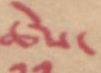ཚེས་
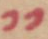༡༡
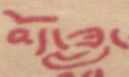བོད་ཟླ་
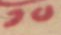༡༠
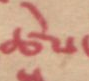ཚེས་
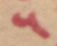༥
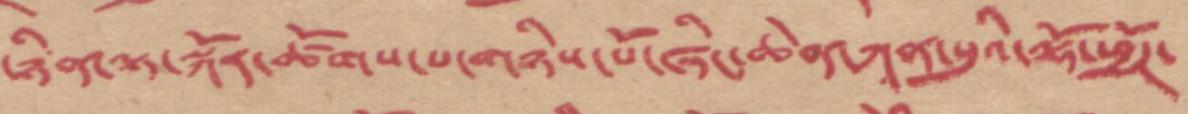ཉིན་ལྟ་སྐོར་ཚོགས་པ་གཉིས་པོ་ཞིང་ཆེན་ཀཱན་སུའི་ལྷོ་ཕྱོཌ་
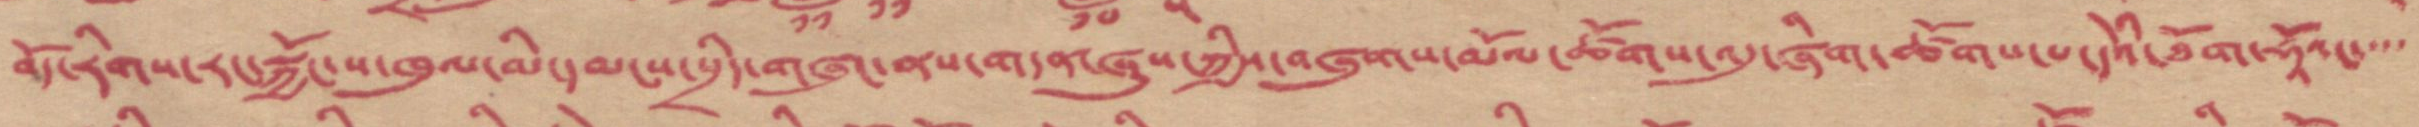བོད་རིགས་རང་སྐྱོང་ས་ཁུལ་མི་དམངས་སྲིད་གཞུང་ནས་གདན་ཞུས་ཀྱིས་བཞུགས་མོལ་ཚོགས་འདུ་ཞིག་ཚོགས་པ་དེའི་ཐོག་ཧཱོའང་་་
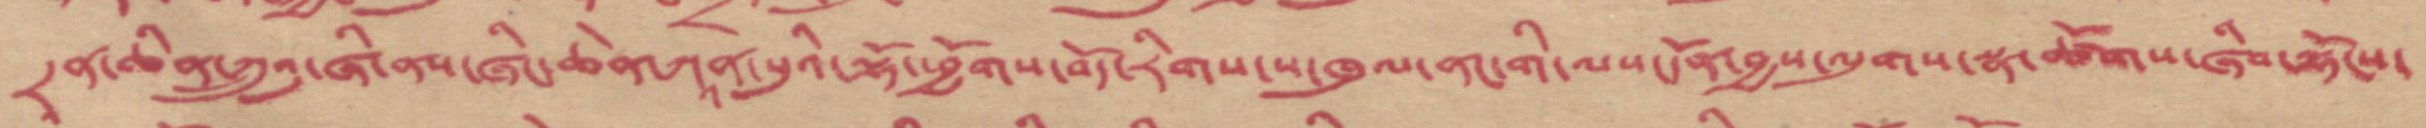དྲན་ཆིན་ཀྲུའུ་ཞི་ནས་ཞིང་ཆེན་ཀཱན་སུའི་ལྷོ་ཕྱོགས་བོད་རིགས་ས་ཁུལ་ནང་གི་ལས་དོན་བྱས་ལུགས་སྣ་ཚོགས་ཞིབ་ལྷོངས་
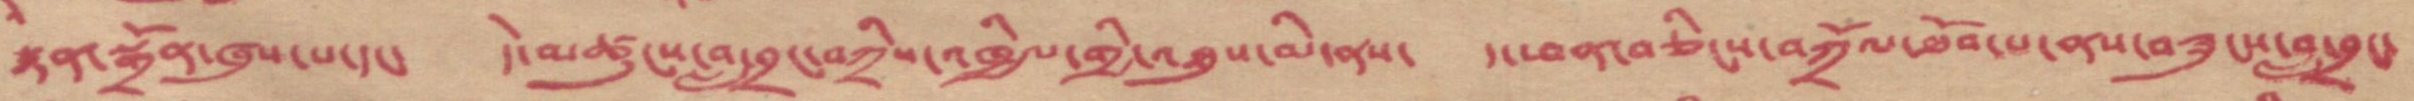སྙན་སྒྲོན་ཁུས་པ་དང་ དེ་མཚུངས་བླ་བྲང་བཀྲིས་འཁྱིལ་གྱི་འཐུས་མི་ནས་ དང་ཕན་བཅིངས་བཀྲོལ་ཐོབ་པ་ནས་བཟུངས་བླ་བྲང་
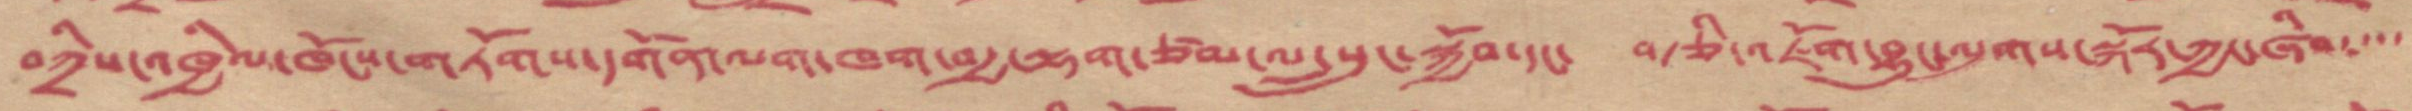བཀྲིས་འཁྱིལ་ཁོངས་གཏོགས་དགོན་ལག་ཁག་བརྒྱ་ལྷག་ཙམ་ལ་སྲུང་སྐྱོབ་དང་ བརྩི་འཇོག་བྱུང་ལུགས་སྐོར་ཀྱང་ཞིབ་་་
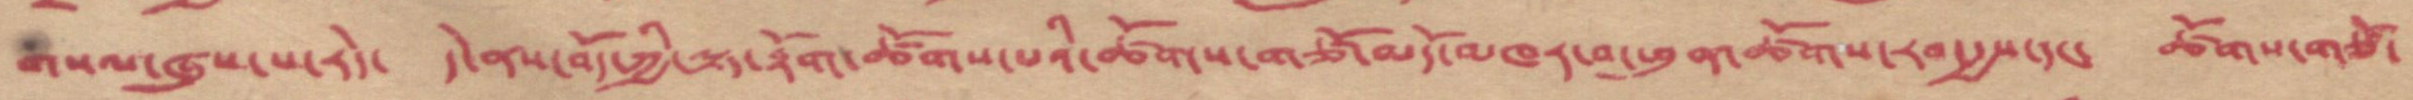གསལ་ཞུས་པ་རེད་ དེ་ནས་བོད་ཀྱི་སྟ་རྟོག་ཚོགས་པའི་ཚོགས་གཙོ་མདོ་མཁར་བ་ཕུན་ཚོགས་རབ་རྒྱས་དང་ ཚོགས་གཙོ་
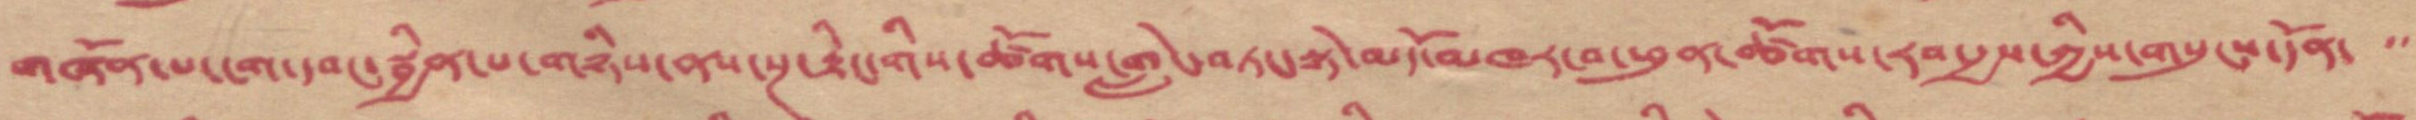གཞོན་པ་ངག་དབང་སྦྱིན་པ་གཉིས་ནས་སྔར་རྟིང་གིས་ཚོགས་གླེང་བཏང་སྟེ་མདོ་མཁར་བ་ཕུན་ཚོགས་རབ་རྒྱས་ཀྱིས་གསུངས་དོན་་་
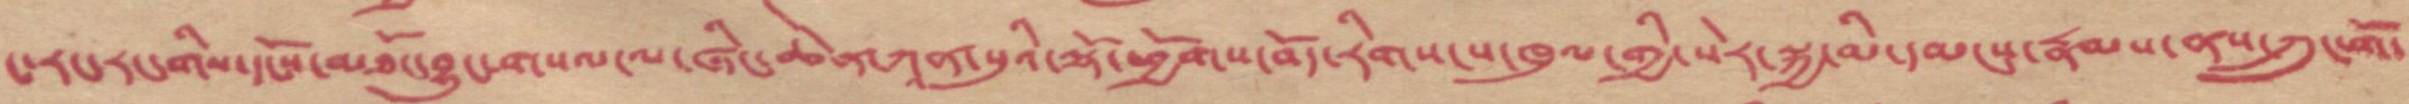ང་རང་རང་གིས་དངོས་མཐོང་བྱུང་གསལ་ལ་ཞིང་ཆེན་ཀཱན་སུའི་ལྷོ་ཕྱོགས་བོད་རིགས་ས་ཁུལ་གྱི་སེར་སྐྱ་མི་དམངས་རྣམས་ནས་ཀྲུང་གོ་
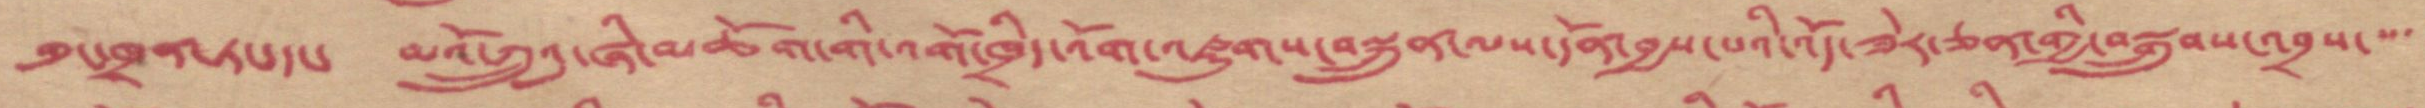གུང་ཁྲན་ཏང་དང་ མའོ་ཀྲུའུ་ཞི་མཆོག་གི་འགོ་ཁྲིད་འོག་འཛུགས་བསྐྲུན་ལས་དོན་བྱས་པའི་འོད་ཟེར་ཅན་གྱི་བསྒྲུབས་འབྲས་་་་
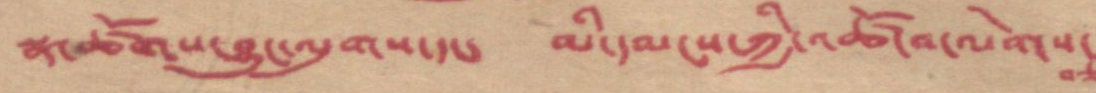སྣ་ཚོགས་བྱུང་ལུགས་དང་ མི་དམངས་ཀྱི་འཚོ་བ་ལེགས་
